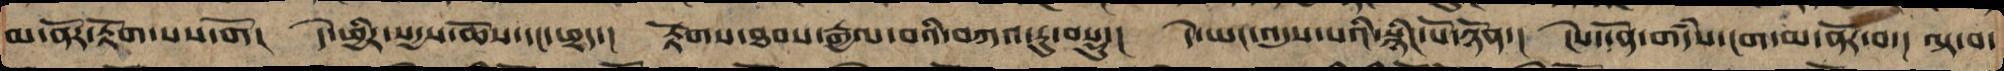མ་ནོར་རྟོག་པས་གོ། དེ་ཕྱིར་སདྱས་ཆོས་དང་ཕྲད་། རྟོགས་ཐབས་རྒྱལ་བའི་བཀའ་རུ་བསྡུ་། དེ་ཡང་འདུས་པའི་སྙིང་པོ་ཉོན་། ངེས་དོན་གདཾས་ངག་མ་ནོར་བར་། ལྟ་བ་
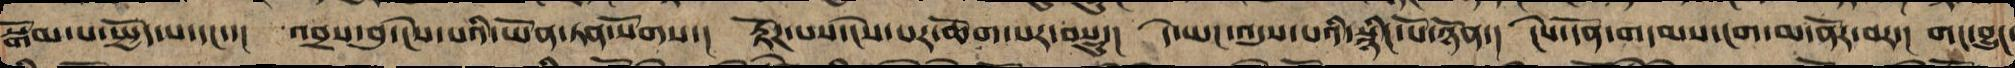བསྒོམ་པ་སྤྱོད་པ་དང་་། འབྲས་བུ་ངེས་པའི་ཡོན་ཏན་སོགས་། རྟོད་པས་ངེས་པར་ཆོག་པར་བསྡུ་། དེ་ཡང་འདུས་པའི་སྙིང་པོ་ཉོན་། ངེས་དོན་གདམས་ངག་མ་ནོར་བར་། གང་བྱུང་
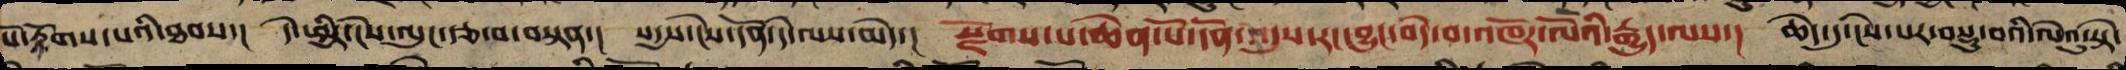པོ་རྟོགས་པའི་ཐབས་། དེ་ཕྱིར་ངེས་ལུང་རྩ་བ་བསྟན་། སདྱས་ངེས་དོན་དེ་ལས་མེད་། སྫོགས་པ་ཆེན་པོ་དོན་འདུས་རང་བྱུང་བདེ་བའི་འཁོར་ལོའི་རྒྱུད་ལས་། ཆེད་དུ་ངེས་པར་བསྡུ་བའི་ལེའུ་སྟེ་
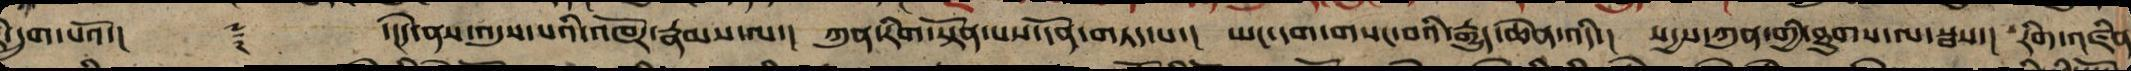རེ་དྲུག་པའོ།་། ༈ ་།།དེ་ནས་འདུས་པའི་འཁོར་རྣམས་ལ་། ཀུན་རིག་སྟོན་པས་དོན་གཏད་པ་། ཡང་དག་གསང་བའི་རྒྱུད་ཆེན་འདི་། སདྱས་ཀུན་གྱི་ཐུགས་ལ་སྦས།་ རིག་འཛིན
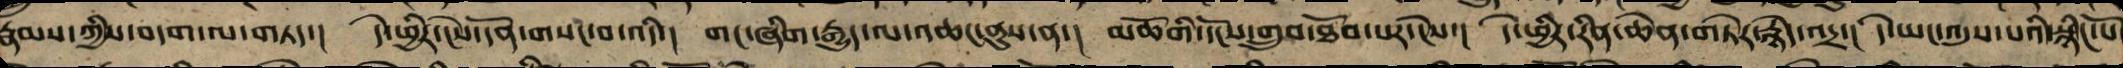རྣམས་ཀྱིས་བདག་ལ་གཏད་། དེ་ཕྱིར་ངེས་དོན་གསང་བ་འདི་། གང་ཞིག་རྒྱུད་ལ་འཆང་ནུས་ན་། མཆོག་གི་དངོས་གྲུབ་ཐོབ་པར་ངེས།་ དེ་ཕྱིར་རིན་ཆེན་གཏེར་རྙེད་འདྲ་། དེ་ཡང་འདུས་པའི་སྙིང་པོ་
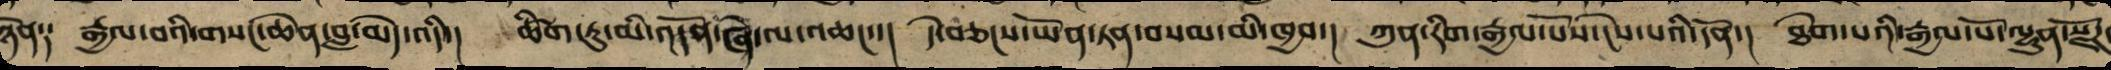ཉོན༑ རྒྱལ་བའི་གསང་ཆེན་བླ་མེད་འདི་། ཚིག་ཏུ་མི་འདོད་ཞེ་ལ་འཆང་་། དེ་བཅངས་ཡོན་ཏན་བསམ་མི་ཁྱབ་། ཀུན་རིག་རྒྱལ་པོས་ངེས་པའི་དོན་། ཐེག་པའི་རྒྱལ་པོ་ལྷུན་སྫོཌ་
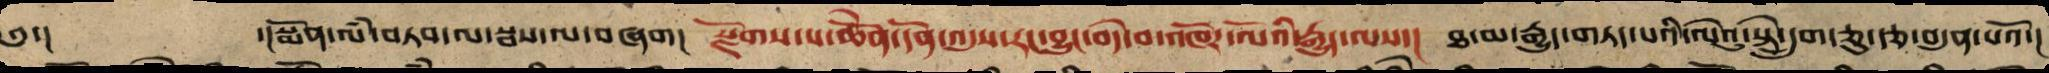༄༅་། ་།སྨོན་ལཾ་བཏབ་ལ་སྦས་ལ་བཞག། སྫོགས་པ་ཆེནོ་དོན་འདུས་རང་བྱུང་བདེ་བའི་འཁོར་ལོའི་རྒྱུད་ལས་། ཐ་མ་རྒྱུད་གཏད་པའི་ལེའུ་སྟེ་དྲུག་ཅུ་རྩ་བདུན་པའོ་།།
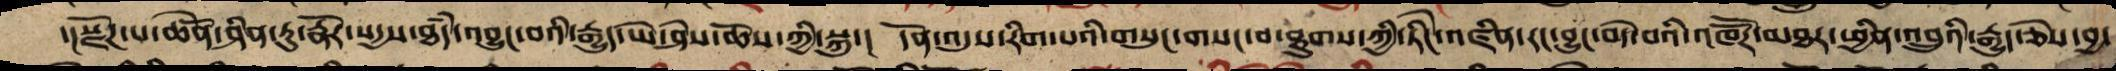་།།སྫོཌ་པ་ཆེོན་ཤིན་ཏུ་རྣལ་འབྱོར་སདྱས་ཐཾད་འབྱུང་བའི་རྒྱུད་ཡེ་ཤེས་ཆོས་ཀྱི་སྐུ་། དོན་འདུས་རིག་པའི་གསུང་གསང་བ་ཐུགས་ཀྱི་ཏིངེ་འཛིན་རང་བྱུང་བདེ་བའི་འཁོརོ་མཐར་ཕྱིན་འབྲུའི་རྒྱུད་ཅེས་བྱ་
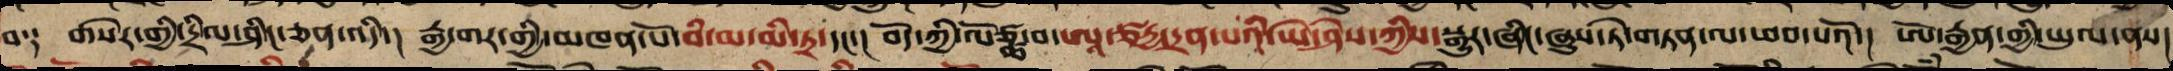བ༑ གསེར་གྱི་དྲིལ་ཤིང་ཅན་འདི་། རྒྱ་གར་གྱི་མཁན་པོ་བི་མ་ལ་མི་ཏྲ་དང་། བོད་ཀྱི་ལོཙྪ་བ་ཨཱ་ཙརྱ་དྲན་པའི་ཡེ་ཤེས་ཀྱིས་བསྒྱུར་ཅིང་ཞུས་ཏེ་གཏན་ལ་ཕབ་པའོ་།། ཨོ་རྒྱན་གྱི་ཡུལ་ནས་
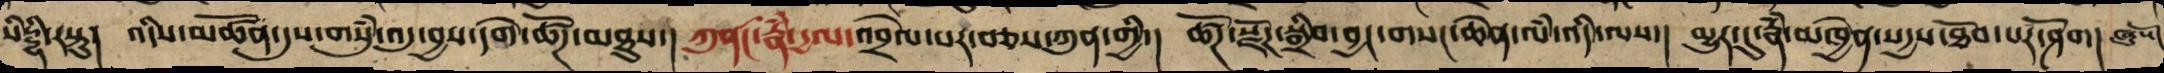སིདྡྷི་རསྟུ། འདིས་མཚོན་དུས་གསུཾ་འདུ་བྱས་དགེ་ཚོཌ་མཐུས་། ཀུན་བཟང་རྣཾ་དྱལ་འབྲེལ་པར་བཅས་ཀུན་གྱི་། ཚོཌ་སྫོཌ་སྒྲིབ་སྦྱང་གསང་ཆེན་ལཾ་འདི་ལས་། མྱུར་དུ་རྣཾ་མཁྱེན་སདྱས་ཐོབ་པར་ཤོག་ ཞེས
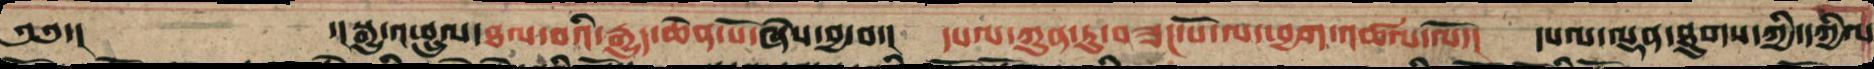༄༅་།  ་།སྒྱུ་འཕྲུལ་ཐལ་བའི་རྒྱུད་ཆེན་པོ་ཞེས་བྱ་བ་། དཔལ་ཀུན་ཏུ་བཟང་པོ་ལ་ཕྱག་འཚལ་ལོ་། །་དཔལ་ལྡན་ཐུགས་ཀྱི་དཀྱིལ་
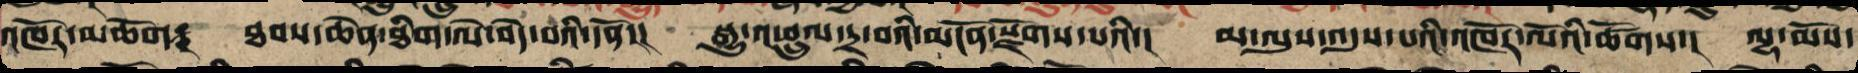འཁོར་མཆོག༔ ཐབས་ཆེན་ཐིག་ལེ་བདེ་བའི་དོན་། སྒྱུ་འཕྲུལ་དྲ་བ་མངོན་སྫོགས་པའི་། མ་ལུས་འདུས་པའི་འཁོར་ལོའི་ཚོགས་། ལྷ་མོས་
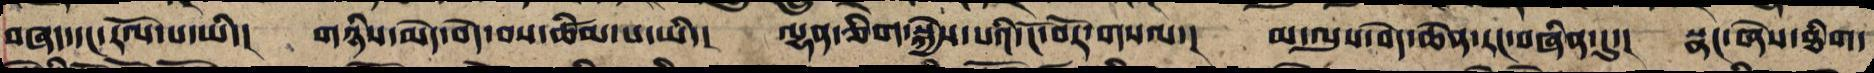བཞད་དང་རོལ་པ་ཡི་། གཉིས་མེད་བདེ་བས་ཚིམ་པ་ཡི་། ལྷན་ཅིག་སྐྱེས་པའི་ངོ་བོར་གསལ་། མ་ལུས་བདེ་ཆེན་རང་བཞིན་དུ་། སྣང་ཞེས་ཐིག་
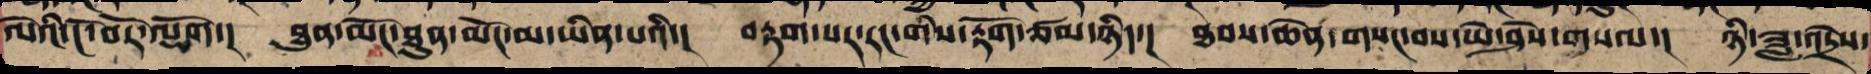ལེའི་ངོ་བོར་ལྡོག་ ཐུན་མོང་ཐུན་མོང་མ་ཡིན་པའི་། བརྟགས་པར་རང་གི་རྟོག་ཙམ་ཉིད་། ཐབས་ཆེན་གསང་བའི་ཡེ་ཤེས་གསལ་། ཉི་ཟླ་འདྲེས་
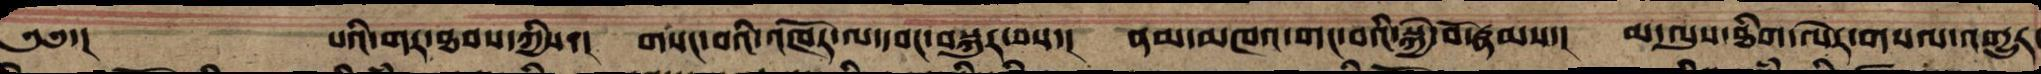༄༅་། པའི་གར་ཐབས་ཀྱིས་། གསང་བའི་འཁོར་ལ་དབང་བསྐུར་པས་། ནམ་མཁའ་གང་བའི་སྐྱེ་བོ་རྣམས་། མ་ལུས་ཐིག་ལེར་གསལ་འགྱུར་
